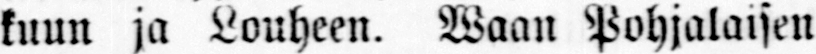kuun ja Louheen. Waan Pohjalaisen
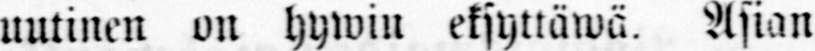uutinen on hywin eksyttäwä. Asian
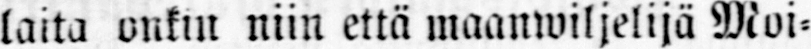laita onkin niin että maanwiljelijä Moi-
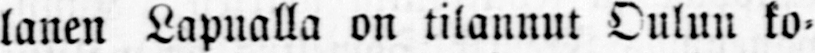lanen Lapualla on tilannut Oulun ko-
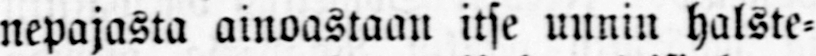nepajasta ainoastaan itse uunin halste-
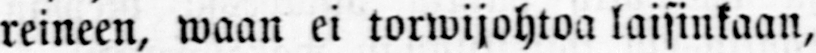reineen, waan ei torwijohtoa laisinkaan,
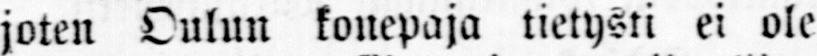joten Oulun konepaja tietysti ei ole
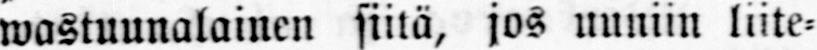wastuunalainen siitä, jos uuniin liite-
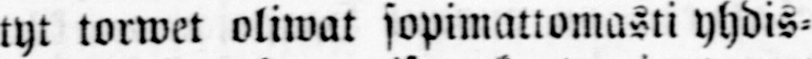tyt torwet oliwat sopimattomasti yhdis-
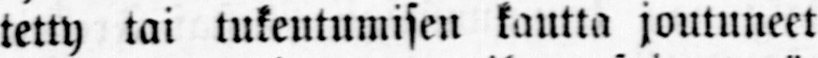tetty tai tukeutumisen kautta joutuneet
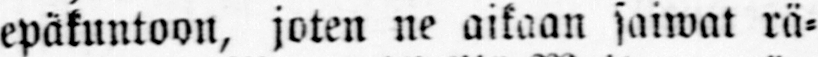epäkuntoon, joten ne aikaan saiwat rä-
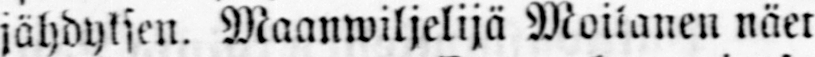jähdyksen. Maanwiljelijä Moilanen näet
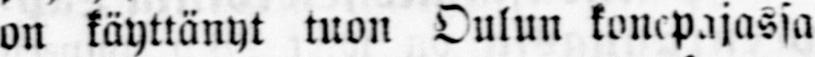on käyttänyt tuon Oulun konepajassa
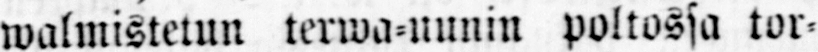walmistetun terwa-uunin poltossa tor-
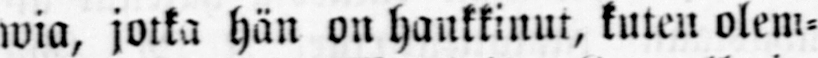wia, jotka hän on hankkinut, kuten olem-
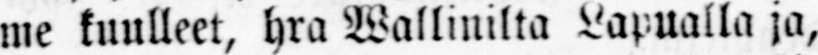me kuulleet, hra Wallinilta Lapualla ja,
